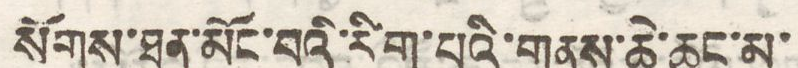སོགས་ཐུན་མོང་བའི་རིག་པའི་གནས་ཆེ་ཆུང་མ་
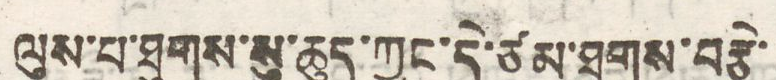ལུས་པ་ཐུགས་སུ་ཆུད་ཀྱང་དེ་ཙམ་ཐུགས་བརྩེ་
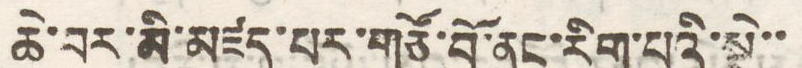ཆེ་བར་མི་མཛད་པར་གཙོ་བོ་ནང་རིག་པའི་སྡེ་་
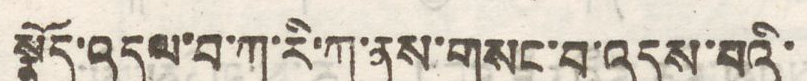སྣོད་འདུལ་བ་ཀ་རི་ཀ་ནས་གསང་བ་འདུས་བའི་
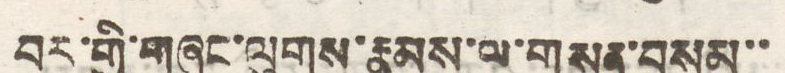བར་གྱི་གཞུང་ལུགས་རྣམས་ལ་གསན་བསམ་་
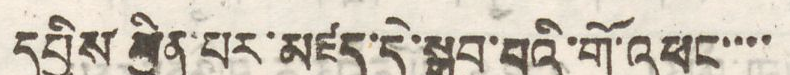དཔྱིས བྱིན་པར་མཛད་དེ་སྒྲུབ་པའི་གོ་འཕང་་་་
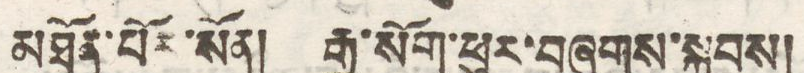མཐོན་པོར་སོན། རྒྱ་སོག་ཕུར་བཞུགས་སྐབས།
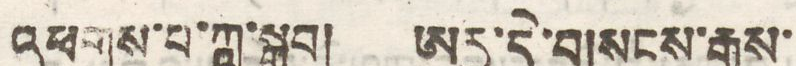འཕགས་པ་ཀླུ་སྒྲུབ། །ཨརྱ་དེ་བ།སངས་རྒྱས་
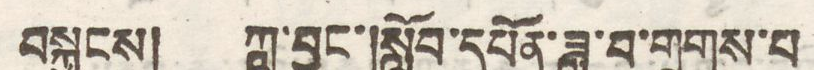བསྐྱངས། ཀླུ་བྱང་།སློབ་དཔོན་ཟླ་བ་གྲགས་པ་
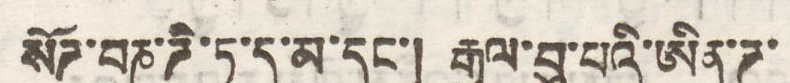སོཌ་པཎ་ཌི་ཏ་དུ་མ་དང་། རྒྱལ་བུ་པའི་ཨིན་ཌ་
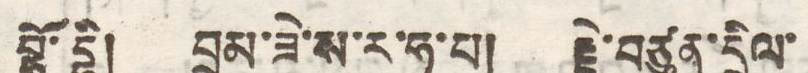བྷོ་དྷི། བྲམ་ཟེ་ས་ར་ཧ་པ། རྗེ་བཙུན་དྲིལ་
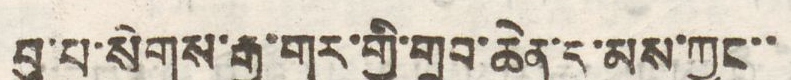བྱ་པ་སོགས་རྒྱ་གར་གྱི་གྲུབ་ཆེན་དུ་མས་ཀྱང་་
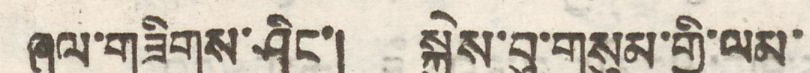ཞལ་གཟིགས་ཤིང་། སྐྱེས་བུ་གསུམ་གྱི་ལམ་
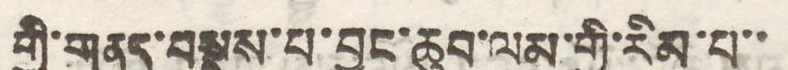གྱི་གནད་བསྡུས་པ་བྱང་ཆུབ་ལམ་གྱི་རིམ་པ་་
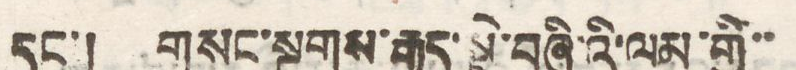དང་། གསང་སྔགས་རྒྱུད་སྡེ་བཞི་འི་ལམ་གྱི་་
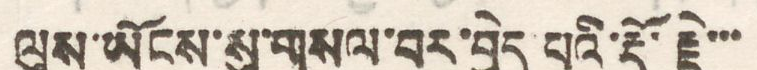ལུས་ཡོངས་སུ་གསལ་བར་བྱེད པའི་རྡོ་རྗེ་་་
